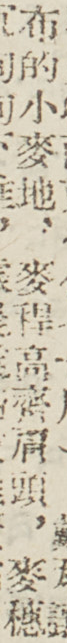布的小麥地，麥稈高齊肩頭，麥穗
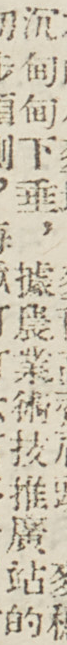沉甸甸下垂，據農業術技推廣站的
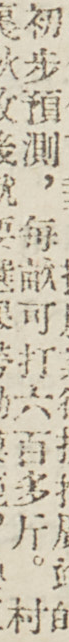初步預測，每畝可打六百多斤。村
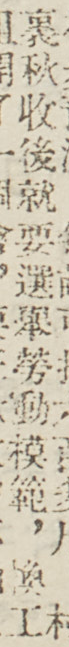裏秋收後就要選舉勞動模範，換工
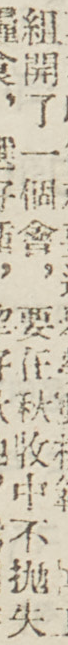組開了一個會，要在秋收中不拋失
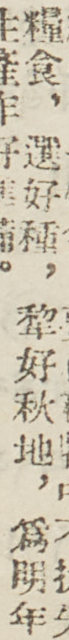糧食，選好種，犂好秋地，爲明年
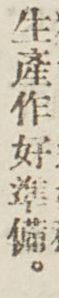生產做好準備。
